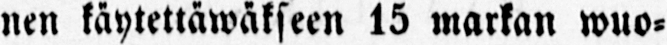nen käytettäwäkseen 15 markan wuo-
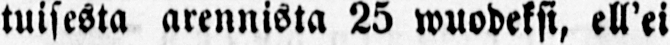tuisesta arennista 25 wuodeksi, ell'ei
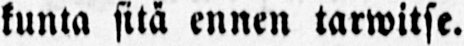kunta sitä ennen tarwitse.
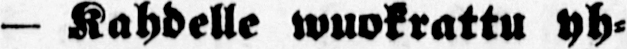— Kahdelle wuokrattu yh-
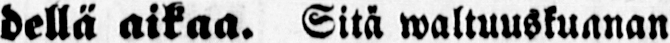dellä aikaa. Sitä waltuuskuanan
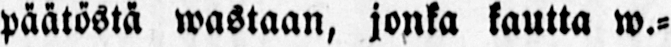päätöstä wastaan, jonka kautta w.-
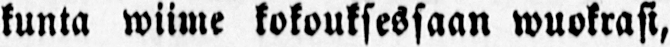kunta wiime kokouksessaan wuokrasi,
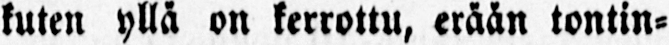kuten yllä on kerrottu, erään tontin-
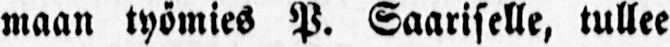maan työmies P. Saariselle, tullee
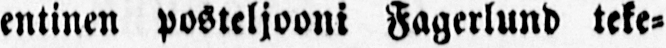entinen posteljooni Fagerlund teke-
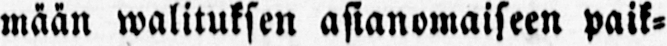mään walituksen asianomaiseen paik-
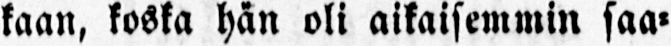kaan, koska hän oli aikaisemmin saa-
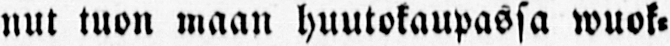nut tuon maan huutokaupassa wuok-
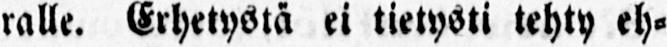ralle. Erhetyötä ei tietysti tehty eh-
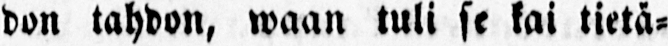don tahdon, waan tuli se kai tietä-
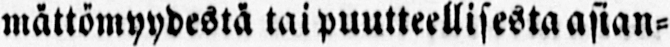mättömyydestä tai puutteellisesta asian-
